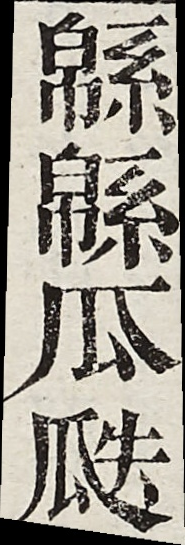緜緜瓜瓞
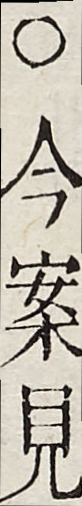○今案見
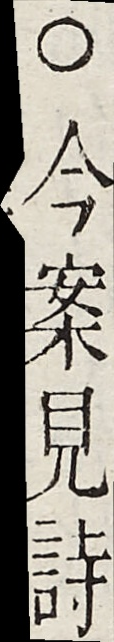○今案見詩
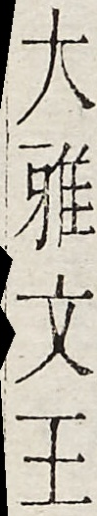大雅文王
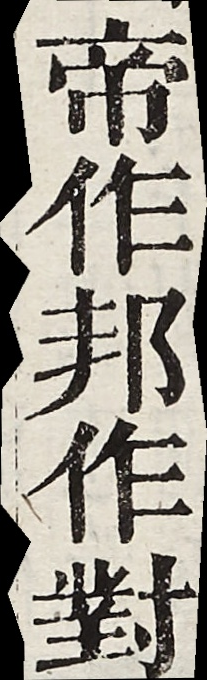帝作邦作對
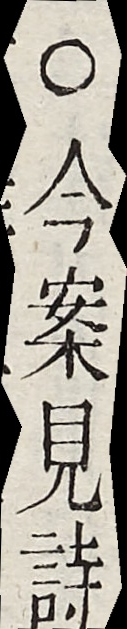○今案見詩
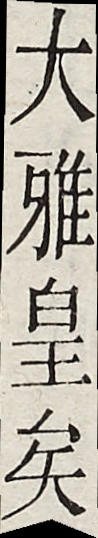大雅皇矣
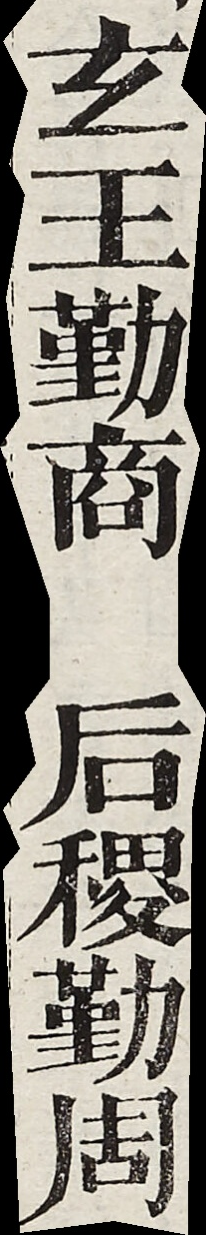玄王勤商　后稷勤周
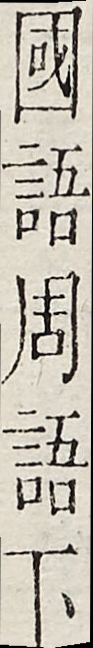國語周語下
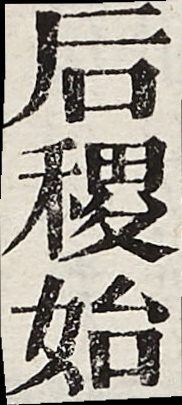后稷始
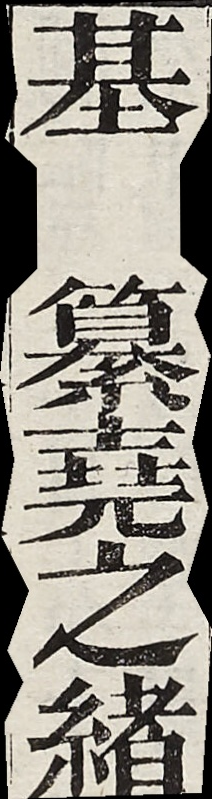基　纂堯之緒
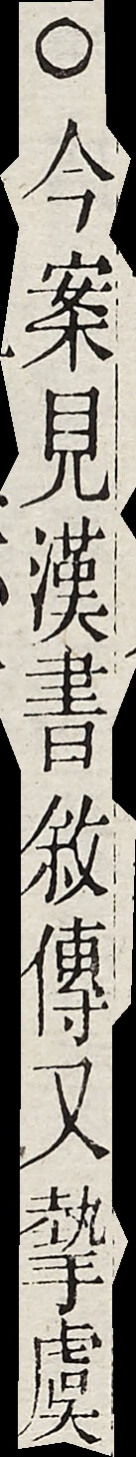○今案見漢書敘傳又摯虞
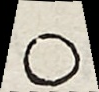○
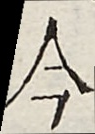今
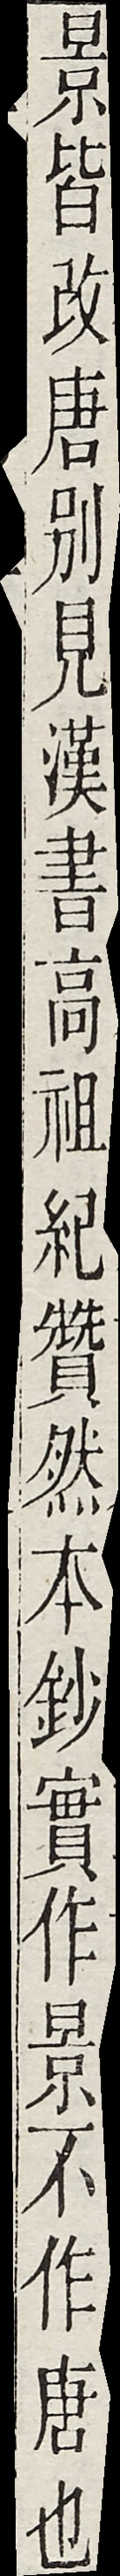景皆改唐別見漢書高祖紀贊然本鈔實作景不作唐也
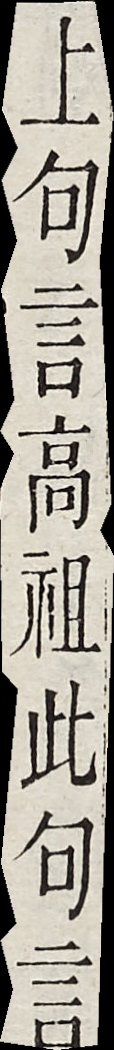上句言高祖此句言
